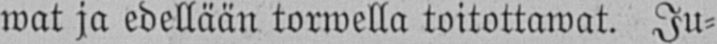wat ja edellään torwella toitottawat. Ju-
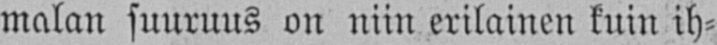malan suuruus on niin erilainen kuin ih-
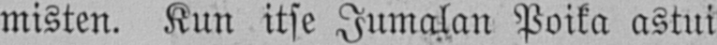misten. Kun itse Jumalan Poika astui
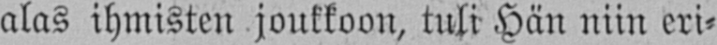alas ihmisten joukkoon, tuli Hän niin eri-
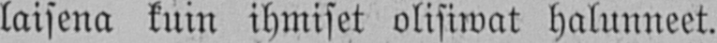laisena kuin ihmiset olisiwat halunneet.
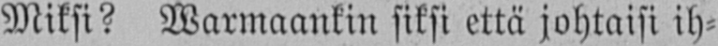Miksi? Warmaankin siksi että johtaisi ih-
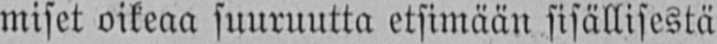miset oikeaa suuruutta etsimään sisällisestä
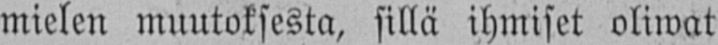mielen muutoksesta, sillä ihmiset oliwat
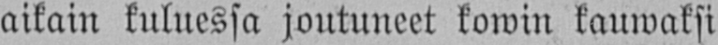aikain kuluessa joutuneet kowin kauwaksi
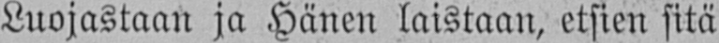Luojastaan ja Hänen laistaan, etsien sitä
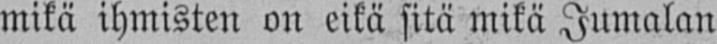mikä ihmisten on eikä sitä mikä Jumalan
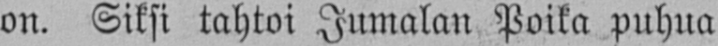on. Siksi tahtoi Jumalan Poika puhua
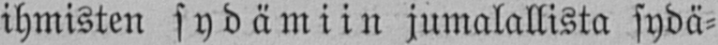ihmisten sydämiin jumalallista sydä-
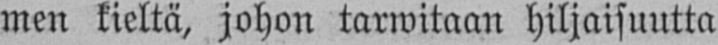men kieltä, johon tarwitaan hiljaisuutta
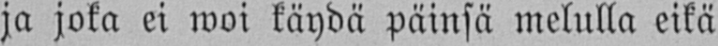ja joka ei woi käydä päinsä melulla eikä
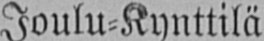Joulu-Kynttilä
